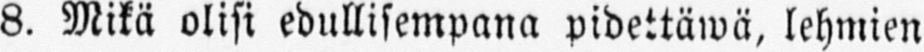8. Mikä olisi edullisempana pidettäwä, lehmien
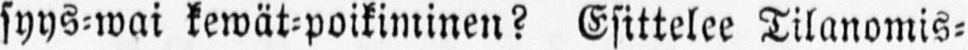syys-wai kewät-poikiminen? Esittelee Tilanomis-
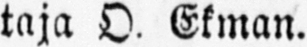taja O. Ekman.
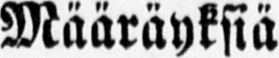Määräyksiä
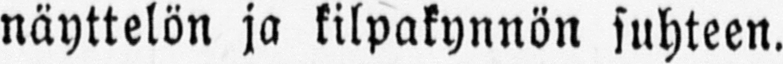näyttelön ja kilpakynnön suhteen.
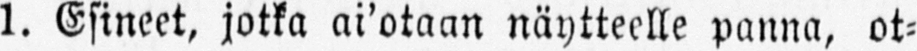1. Esineet, jotka ai'otaan näytteelle panna, ot-
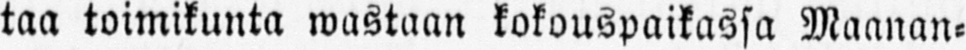taa toimikunta wastaan kokouspaikassa Maanan-
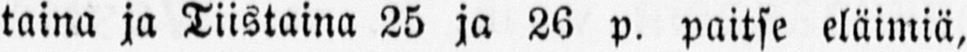taina ja Tiistaina 25 ja 26 p. paitse eläimiä,
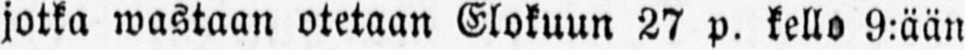jotka wastaan otetaan Elokuun 27 p. kello 9:ään
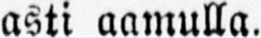asti aamulla.
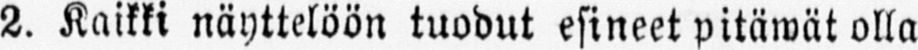2. Kaikki näyttelöön tuodut esineet pitäwät olla
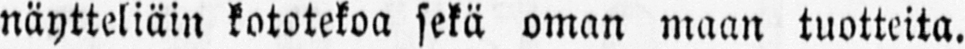näytteliäin kototekoa sekä oman maan tuotteita.
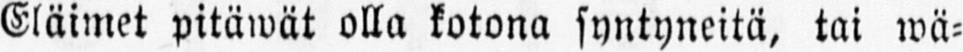Eläimet pitäwät olla kotona syntyneitä, tai wä-
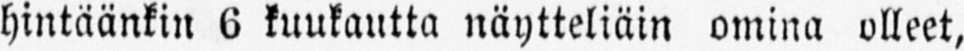hintäänkin 6 kuukautta näytteliäin omina olleet,
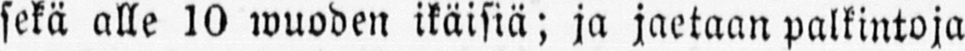sekä alle 10 wuoden ikäisiä; ja jaetaan palkintoja
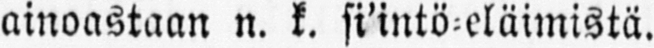ainoastaan n. k. si'intö-eläimistä.
